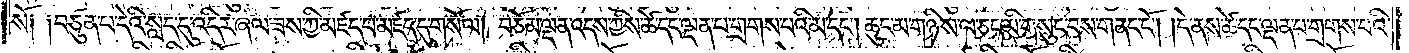སོ༑ ༑བཙུན་པ་དེའི་སླད་དུ་འདིར་ཞལ་ཟས་ཀྱི་མཛད་པ་མཛད་དུ་གསོལ། བཅོམ་ལྡན་འདས་ཀྱིས་ཚེ་དང་ལྡན་པ་གྲགས་པའི་མ་དང༌། ཆུང་མ་གཉིས་ལ་ཅང་མི་གསུང་བས་གནང་ངོ༌། །དེ་ནས་ཚེ་དང་ལྡན་པ་གྲགས་པའི་
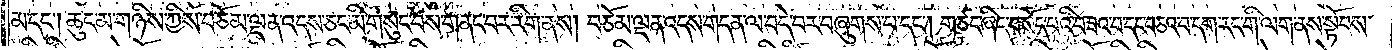མ་དང༌། ཆུང་མ་གཉིས་ཀྱིས་བཅོམ་ལྡན་འདས་ཅང་མི་གསུང་བས་གནང་བར་རིག་ནས། བཅོམ་ལྡན་འདས་གདན་ལ་བདེ་བར་བཞུགས་པ་དང༌། གཙང་ཞིང་བསོད་པའི་བཟའ་བ་དང་བཅའ་བ་དག་རང་གི་ལག་ནས་སྟོབས་
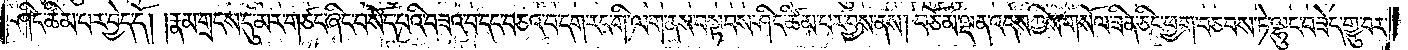ཤིང་ཚིམ་པར་བྱེད་དོ། །རྣམ་གྲངས་དུ་མར་གཙང་ཞིང་བསོད་པའི་བཟའ་བ་དང་བཅའ་བ་དག་རང་གི་ལག་ནས་བསྟབས་ཤིང་ཚིམ་པར་བྱས་ནས། བཅོམ་ལྡན་འདས་ཀྱིས་གསོལ་ཟིན་ཅིང་ཕྱག་བཅབས་ཏེ་ལྷུང་བཟེད་གྱུ་བར་
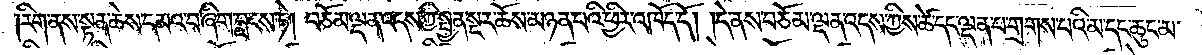རིག་ནས་སྟན་ཆེས་དམའ་བ་ཞིག་བླངས་ཏེ། བཅོམ་ལྡན་འདས་ཀྱི་སྤྱན་སྔར་ཆོས་མཉན་པའི་ཕྱིར་འཁོད་དོ། །དེ་ནས་བཅོམ་ལྡན་འདས་ཀྱིས་ཚེ་དང་ལྡན་པ་གྲགས་པའི་མ་དང་ཆུང་མ་
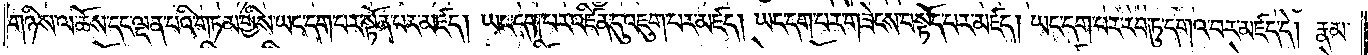གཉིས་ལ་ཆོས་དང་ལྡན་པའི་གཏམ་གྱིས་ཡང་དག་པར་སྟོན་པར་མཛད། ཡང་དག་པར་འཛིན་དུ་འཇུག་པར་མཛད། ཡང་དག་པར་གཟེངས་བསྟོད་པར་མཛད། ཡང་དག་པར་རབ་ཏུ་དགའ་བར་མཛད་དེ། རྣམ་
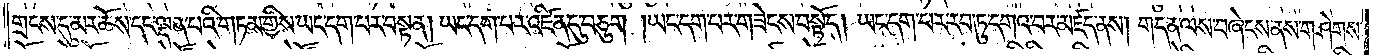གྲངས་དུ་མར་ཆོས་དང་ལྡན་པའི་གཏམ་གྱིས་ཡང་དག་པར་བསྟན། ཡང་དག་པར་འཛིན་དུ་བཅུག །ཡང་དག་པར་གཟེངས་བསྟོད། ཡང་དག་པར་རབ་ཏུ་དགའ་བར་མཛད་ནས། གདན་ལས་བཞེངས་ནས་གཤེགས་
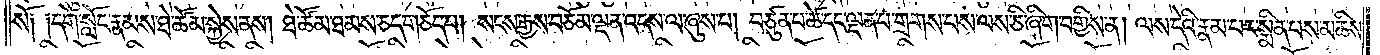སོ༑ ༑དགེ་སློང་རྣམས་ཐེ་ཚོམ་སྐྱེས་ནས། ཐེ་ཚོམ་ཐམས་ཅད་གཅོད་པ། སངས་རྒྱས་བཅོམ་ལྡན་འདས་ལ་ཞུས་པ། བཙུན་པ་ཚེ་དང་ལྡན་པ་གྲགས་པས་ལས་ཅི་ཞིག་བགྱིས་ན། ལས་དེའི་རྣམ་པར་སྨིན་པས་མཆིས་
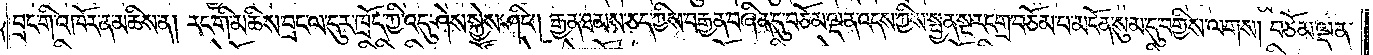བྲང་གི་འཁོར་ན་མཆིས་ན། རང་གི་མཆིས་བྲང་ལ་དུར་ཁྲོད་ཀྱི་འདུ་ཤེས་སྐྱེས་ཤིང༌། རྒྱན་ཐམས་ཅད་ཀྱིས་བརྒྱན་བཞིན་དུ་བཅོམ་ལྡན་འདས་ཀྱིས་སྤྱན་སྔར་དགྲ་བཅོམ་པ་མངོན་སུམ་དུ་བགྱིས་ལགས། བཅོམ་ལྡན་
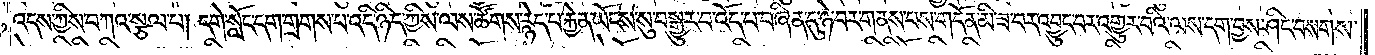འདས་ཀྱིས་བཀའ་སྩལ་པ། དགེ་སློང་དག་གྲགས་པ་འདི་ཉིད་ཀྱིས་ལས་ཚོགས་རྙེད་པ་རྐྱེན་ཡོངས་སུ་བསྒྱུར་བ་འོད་པ་བཞིན་དུ་ཉེ་བར་གནས་པས་གདོན་མི་ཟ་བར་འབྱུང་བར་འགྱུར་བའི་ལས་དག་བྱས་ཤིང་བསགས་
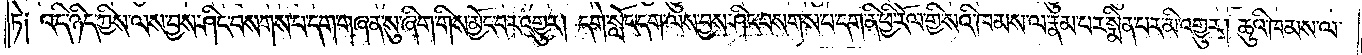ཏེ༑ འདི་ཉིད་ཀྱིས་ལས་བྱས་ཤིང་བསགས་པ་དག་གཞན་སུ་ཞིག་གིས་མྱོང་བར་འགྱུར། དགེ་སློང་དག་ལས་བྱས་ཤིང་བསགས་པ་དག་ནི་ཕྱི་རོལ་གྱི་སའི་ཁམས་ལ་རྣམ་པར་སྨིན་པར་མི་འགྱུར། ཆུའི་ཁམས་ལ་
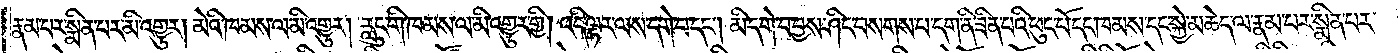རྣམ་པར་སྨིན་པར་མི་འགྱུར། མེའི་ཁམས་ལ་མི་འགྱུར། རླུང་གི་ཁམས་ལ་མི་འགྱུར་གྱི། འདི་ལྟར་ལས་དགེ་བ་དང༌། མི་དགེ་བ་བྱས་ཤིང་བསགས་པ་དག་ནི་ཟིན་པའི་ཕུང་པོ་དང་ཁམས་དང་སྐྱེ་མཆེད་ལ་རྣམ་པར་སྨིན་པར་
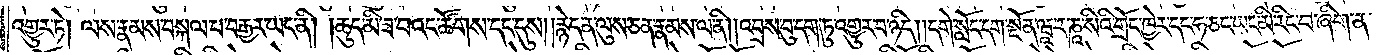འགྱུར་ཏེ། ལས་རྣམས་བསྐལ་པ་བརྒྱར་ཡང་ནི། །ཆུད་མི་ཟ་བའང་ཚོགས་དང་དུས། །རྙེད་ན་ལུས་ཅན་རྣམས་ལ་ནི། །འབྲས་བུ་དག་ཏུ་འགྱུར་བ་ཉིད། །དགེ་སློང་དག་སྔོན་ཝཱ་ར་ཎཱ་སིའི་གྲོང་ཁྱེར་དང་ཧ་ཅང་ཡང་མི་རིང་བ་ཞིག་ན་
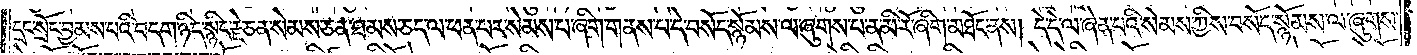དྲང་སྲོང་བྱམས་པའི་བདག་ཉིད་སྙིང་རྗེ་ཅན་སེམས་ཅན་ཐམས་ཅད་ལ་ཕན་པར་སེམས་པ་ཞིག་གནས་པ་དེ་བསོད་སྙོམས་ལ་ཞུགས་པ་ན་མི་རོ་ཞིག་མཐོང་ནས། དེ་དེ་ལ་ཞེན་པའི་སེམས་ཀྱིས་བསོད་སྙོམས་ལ་ཞུགས་
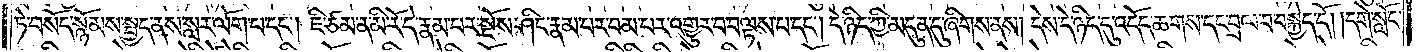ཏེ་བསོད་སྙོམས་སྤྱད་ནས་སླར་ལོག་པ་དང༌། ཇི་ཙམ་ན་མི་རོ་དེ་རྣམ་པར་སྔོས་ཤིང་རྣམ་པར་བམ་པར་འགྱུར་བ་བལྟས་པ་དང༌། དེ་ཉིད་ཀྱི་མདུན་དུ་ཞིགས་ནས། དེས་དེ་ཉིད་དུ་འདོད་ཆགས་དང་བྲལ་བ་བསྐྱེད་དོ། །དགེ་སློང་
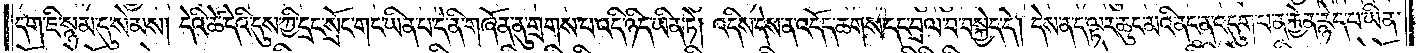དག་ཇི་སྙམ་དུ་སེམས། དེའི་ཚེ་དེའི་དུས་ཀྱི་དྲང་སྲོང་གང་ཡིན་པ་དེ་ནི་གཞོན་ནུ་གྲགས་པ་འདི་ཉིད་ཡིན་ཏེ། འདིས་དེས་ན་འདོད་ཆགས་དང་བྲལ་བ་བསྐྱེད་དེ། དེས་ན་ད་ལྟར་ཆུང་མའི་ནང་ན་འདུག་པ་ན་རྐྱེན་རྙེད་པ་ཡིན་
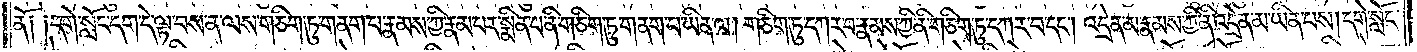ནོ༑ ༑དགེ་སློང་དག་དེ་ལྟ་བས་ན་ལས་གཅིག་ཏུ་གནག་པ་རྣམས་ཀྱི་རྣམ་པར་སྨིན་པ་ནི་གཅིག་ཏུ་གནག་པ་ཡིན་ལ། གཅིག་ཏུ་དཀར་བ་རྣམས་ཀྱི་ནི་གཅིག་ཏུ་དཀར་བ་དང༌། །འདྲེན་མ་རྣམས་ཀྱི་ནི་འདྲེན་མ་ཡིན་པས། དགེ་སློང་
